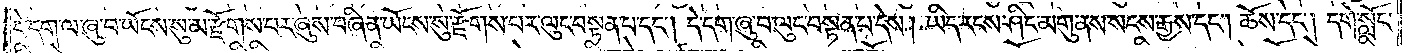དེ་དག་ལ་ཞུ་བ་ཡོངས་སུ་མ་རྫོགས་པར་ཞུས་བཞིན་ཡོངས་སུ་རྫོགས་པར་ལུང་བསྟན་པ་དང༌། དེ་དག་ཞུ་བ་ལུང་བསྟན་པ་དེས། ཡིད་རངས་ཤིང་མགུ་ནས་སངས་རྒྱས་དང༌། ཆོས་དང༌། དགེ་སློང་
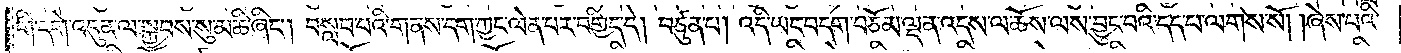གི་དགེ་འདུན་ལ་སྐྱབས་སུ་མཆི་ཞིང༌། བསླབ་པའི་གནས་དག་ཀྱང་ལེན་པར་བགྱིད་དེ། བཙུན་པ། འདི་ཡང་བདག་བཅོམ་ལྡན་འདས་ལ་ཆོས་ལས་བྱུང་བའི་དད་པ་ལགས་སོ། །ཞེས་པའི་
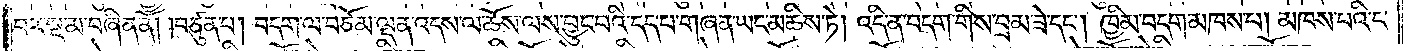བར་སྔ་མ་བཞིན་ནོ། །བཙུན་པ། བདག་ལ་བཅོམ་ལྡན་འདས་ལ་ཆོས་ལས་བྱུང་བའི་དད་པ་གཞན་ཡང་མཆིས་ཏེ། འདི་ན་བདག་གིས་བྲམ་ཟེ་དང༌། ཁྱིམ་བདག་མཁས་པ། མཁས་པའི་ང་
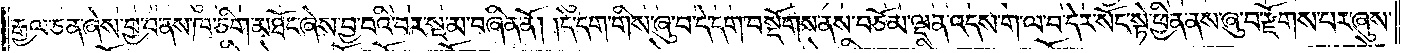རྒྱལ་ཅན་ཞེས་བྱ་བ་ནས་ཁ་ཅིག་མཐོང་ཞེས་བྱ་བའི་བར་སྔ་མ་བཞིན་ནོ། །དེ་དག་གིས་ཞུ་བ་དེ་དག་བསྡོགས་ནས་བཅོམ་ལྡན་འདས་ག་ལ་བ་དེར་སོང་སྟེ་ཕྱིན་ནས་ཞུ་བ་རྫོགས་པར་ཞུས་
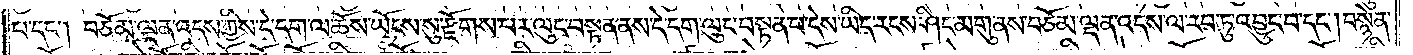པ་དང༌། བཅོམ་ལྡན་འདས་ཀྱིས་དེ་དག་ལ་ཆོས་ཡོངས་སུ་རྫོགས་པར་ལུང་བསྟན་ནས་དེ་དག་ལུང་བསྟན་པ་དེས་ཡིད་རངས་ཤིང་མགུ་ནས་བཅོམ་ལྡན་འདས་ལ་རབ་ཏུ་འབྱུང་བ་དང༌། བསྙེན་
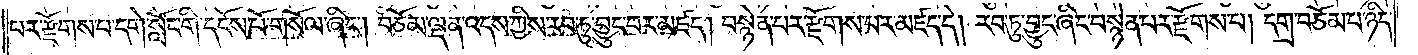པར་རྫོགས་པ་དགེ་སློང་གི་དངོས་པོ་གསོལ་ཞིང༌། བཅོམ་ལྡན་འདས་ཀྱིས་རབ་ཏུ་བྱུང་བར་མཛད། བསྙེན་པར་རྫོགས་པར་མཛད་དེ། རབ་ཏུ་བྱུང་ཞིང་བསྙེན་པར་རྫོགས་པ། དགྲ་བཅོམ་པ་ཉིད་
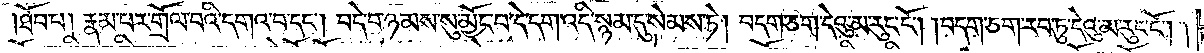ཐོབ་པ། རྣམ་པར་གྲོལ་བའི་དགའ་བ་དང༌། བདེ་བ་ཉམས་སུ་མྱོང་པ་དེ་དག་འདི་སྙམ་དུ་སེམས་ཏེ། བདག་ཅག་དེའུ་མ་རུང་ངོ༌། །བདག་ཅག་རབ་ཏུ་དེའུ་མ་རུང་ངོ༌། །
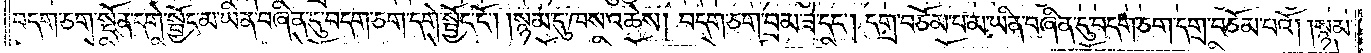བདག་ཅག་སྔོན་དགེ་སྦྱོང་མ་ཡིན་བཞིན་དུ་བདག་ཅག་དགེ་སྦྱོང་ངོ༌། །སྙམ་དུ་ཁས་འཆེས། བདག་ཅག་བྲམ་ཟེ་དང༌། དགྲ་བཅོམ་པ་མ་ཡིན་བཞིན་དུ་བདག་ཅག་དགྲ་བཅོམ་པའོ། །སྙམ་
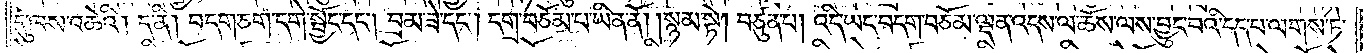དུ་ཁས་འཆེའི། ད་ནི། བདག་ཅག་དགེ་སྦྱོང་དང༌། བྲམ་ཟེ་དང༌། དགྲ་བཅོམ་པ་ཡིན་ནོ། །སྙམ་སྟེ། བཙུན་པ། འདི་ཡང་བདག་བཅོམ་ལྡན་འདས་ལ་ཆོས་ལས་བྱུང་བའི་དད་པ་ལགས་ཏེ་
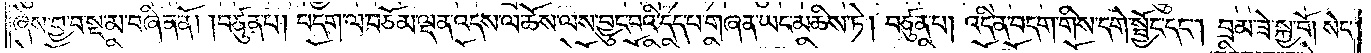ཞེས་བྱ་བ་སྔ་མ་བཞིན་ནོ། །བཙུན་པ། བདག་ལ་བཅོམ་ལྡན་འདས་ལ་ཆོས་ལས་བྱུང་བའི་དད་པ་གཞན་ཡང་མཆིས་ཏེ། བཙུན་པ། འདི་ན་བདག་གིས་དགེ་སྦྱོང་དང༌། བྲམ་ཟེ་སྐྱ་བོ། སེང་
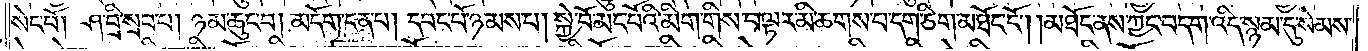སེང་བོ། ཤ་བྲི་སྲབ་པ། ཉམ་ཆུང་བ། མདོག་ངན་པ། དབང་པོ་ཉམས་པ། སྐྱེ་བོ་མང་པོའི་མིག་གིས་བལྟར་མི་ཆགས་པ་དག་ཅིག་མཐོང་ངོ༌། །མཐོང་ནས་ཀྱང་བདག་འདི་སྙམ་དུ་སེམས་
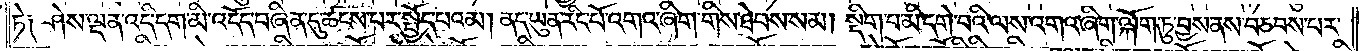ཏེ༑ ཤེས་ལྡན་འདི་དག་མི་འདོད་བཞིན་དུ་ཚངས་པར་སྤྱོད་པའམ། ནད་ཡུན་རིང་པོ་འགའ་ཞིག་གིས་ཐེབས་སམ། སྡིག་པ་མི་དགེ་བའི་ལས་འགའ་ཞིག་ལྐོག་ཏུ་བྱས་ནས་བཅབས་པར་
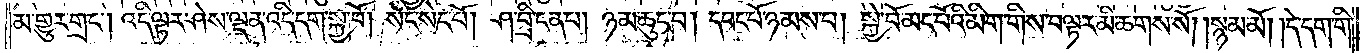མ་གྱུར་གྲང༌། འདི་ལྟར་ཤེས་ལྡན་འདི་དག་སྐྱ་བོ། སེང་སེང་པོ། ཤ་བྲི་ངན་པ། ཉམ་ཆུང་བ། དབང་པོ་ཉམས་པ། སྐྱེ་བོ་མང་པོའི་མིག་གིས་བལྟར་མི་ཆགས་སོ། །སྙམ་མོ། །དེ་དག་གི་
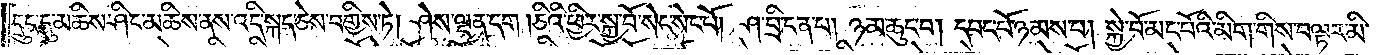དྲུང་དུ་མཆིས་ཤིང་མཆིས་ནས་འདི་སྐད་ཅེས་བགྱིས་ཏེ། ཤེས་ལྡན་དག །ཅིའི་ཕྱིར་སྐྱ་བོ་སེང་སེང་པོ། ཤ་བྲི་ངན་པ། ཉམ་ཆུང་བ། དབང་པོ་ཉམས་པ། སྐྱེ་བོ་མང་པོའི་མིག་གིས་བལྟར་མི་
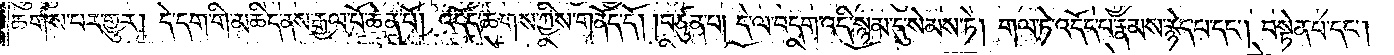ཆགས་པར་གྱུར། དེ་དག་གི་མཆིད་ནས་རྒྱལ་པོ་ཆེན་པོ། འདོད་ཆགས་ཀྱིས་གནོད་དོ། །བཙུན་པ། དེ་ལ་བདག་འདི་སྙམ་དུ་སེམས་ཏེ། གལ་ཏེ་འདོད་པ་རྣམས་རྙེད་པ་དང༌། བསྟེན་པ་དང༌།
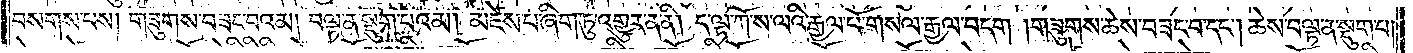བསགས་པས། གཟུགས་བཟང་བའམ། བལྟ་ན་སྡུག་པའམ། མཛེས་པ་ཞིག་ཏུ་འགྱུར་ན་ནི། ད་ལྟ་ཀོ་ས་ལའི་རྒྱལ་པོ་གསལ་རྒྱལ་བདག། གཟུགས་ཆེས་བཟང་བ་དང༌། ཆེས་བལྟ་ན་སྡུག་པ།
